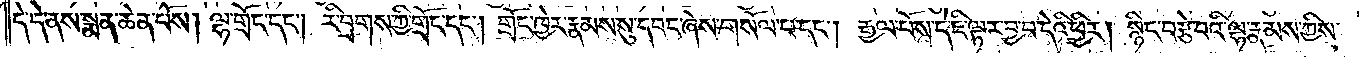དེ་དེ་ནས་སྨན་ཆེན་པོས། ལྷ་གྲོང་དང༌། རི་བྲགས་ཀྱི་གྲོང་དང༌། གྲོང་ཁྱེར་རྣམས་སུ་དབང་ཞེས་གསོལ་པ་དང༌། རྒྱལ་པོས་དེ་ཇི་ལྟར་བྱ་བ་དེའི་ཕྱིར། སྙིང་བརྩེ་བའི་ལྷ་རྣམས་ཀྱིས་
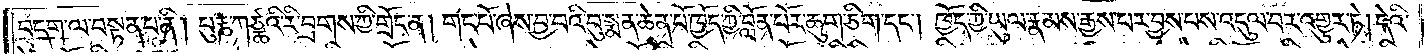བདག་ལ་བསྟན་པ་ནི། པུ་རྞ་ཀཙྪའི་རི་བྲགས་ཀྱི་གྲོང་ན། གང་པོ་ཞེས་བྱ་བའི་བུ་སྨན་ཆེན་པོ་ཁྱོད་ཀྱི་བློན་པོར་ཆུག་ཅིག་དང༌། ཁྱོད་ཀྱི་ཡུལ་རྣམས་རྒྱས་པར་བྱས་པས་འདུལ་བར་འགྱུར་ཏེ། དེའི་
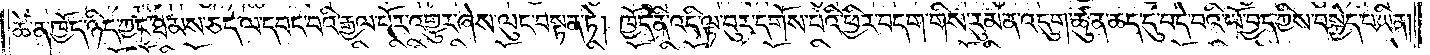ཚེ་ན་ཁྱོད་ཉིད་ཀྱང་ཐམས་ཅད་ལ་དབང་བའི་རྒྱལ་པོར་འགྱུར་ཞེས་ལུང་བསྟན་ཏེ། ཁྱོད་ནི་འདི་ལྟ་བུར་དགོས་པའི་ཕྱིར་བདག་གིས་རུམ་ན་འདུག་ཚུན་ཆད་དུ་བདེ་བའི་ཡོ་བྱད་ཀྱིས་བསྐྱེད་པ་ཡིན།
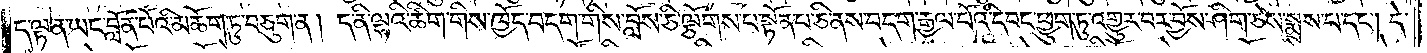ད་ལྟ་ན་ཡང་བློན་པོའི་མཆོག་ཏུ་བཅུག་ན། ད་ནི་ལྷའི་ཚིག་གིས་ཁྱོད་བདག་གིས་བློས་ཅི་ལྕོགས་པ་སྟོན་པ་ཅི་ནས་བདག་རྒྱལ་པོའི་དབང་ཕྱུག་ཏུ་འགྱུར་བར་བྱོས་ཤིག་ཅེས་སྨྲས་པ་དང༌། དེ་
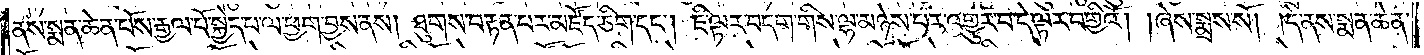ནས་སྨན་ཆེན་པོས་རྒྱལ་པོ་སྐྱེད་པ་ལ་ཕྱག་བྱས་ནས། ཐུགས་བརྟན་པར་མཛོད་ཅིག་དང༌། ཇི་ལྟར་བདག་གིས་ལྷ་མཉེས་པར་འགྱུར་བ་དེ་ལྟར་བགྱིའོ། །ཞེས་སྨྲས་སོ། །དེ་ནས་སྨན་ཆེན་
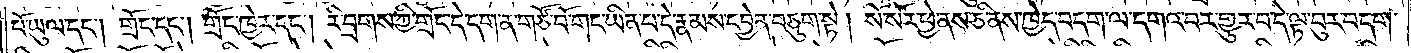པོ་ཡུལ་དང༌། གྲོང་དང༌། གྲོང་ཁྱེར་དང༌། རི་བྲགས་ཀྱི་གྲོང་དེ་དག་ན་གཙོ་བོ་གང་ཡིན་པ་དེ་རྣམས་དབྱེན་བཅུག་སྟེ། སོ་སོར་ཕྱེ་ནས་ཅི་ནས་ཁྱེད་བདག་ལ་དགའ་བར་གྱུར་པ་དེ་ལྟ་བུར་བདག་
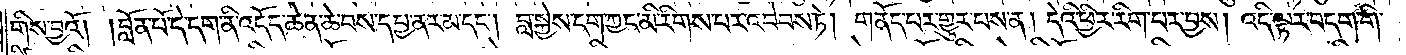གིས་བྱའོ། །བློན་པོ་དེ་དག་ནི་འདོད་ཆེན་ཆེ་བས་དཔྱ་ནར་མ་དང༌། བླ་སྐྱེས་དག་ཀྱང་མི་རིགས་པར་འབེབས་ཏེ། གནོད་པར་གྱུར་པས་ན། དེའི་ཕྱིར་རིག་པར་བྱས། འདི་ལྟར་བདག་གི་
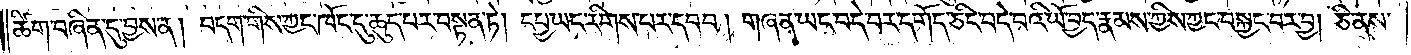ཚིག་བཞིན་དུ་བྱས་ན། བདག་གིས་ཀྱང་ཁོང་དུ་ཆུད་པར་བསྟན་ཏེ། དཔྱ་ཡང་རིགས་པར་དབབ། གཞན་ཡང་བདེ་བར་དགོད་ཅིང་བདེ་བའི་ཡོ་བྱད་རྣམས་ཀྱིས་ཀྱང་བསྐྱང་བར་བྱ། ཅི་ནས་
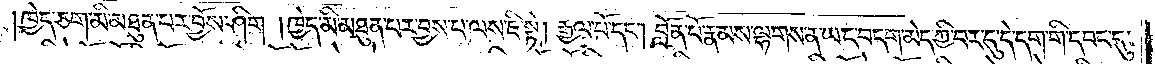ཁྱེད་ཅག་མི་མཐུན་པར་བྱོས་ཤིག །ཁྱེད་མི་མཐུན་པར་བྱས་པ་ལས་ཇི་སྟེ། རྒྱལ་པོ་དང༌། བློན་པོ་རྣམས་ལྷགས་ན་ཡང་བདག་མེད་ཀྱི་བར་དུ་དེ་དག་གི་དབང་དུ་
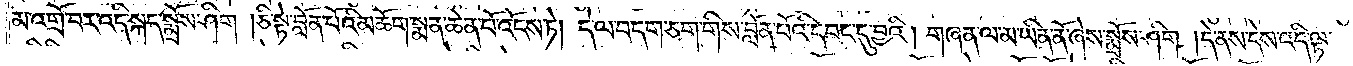མ་འགྲོ་བར་འདི་སྐད་སྨྲོས་ཤིག །ཅི་སྟེ་བློན་པོའི་མཆོག་སྨན་ཆེན་པོ་འོངས་ཏེ། དེ་ལ་བདག་ཅག་གིས་བློན་པོའི་དབང་དུ་བྱའི། གཞན་ལ་མ་ཡིན་ནོ་ཞེས་སྨྲོས་ཤིག །དེ་ནས་དེས་འདི་ལྟ་
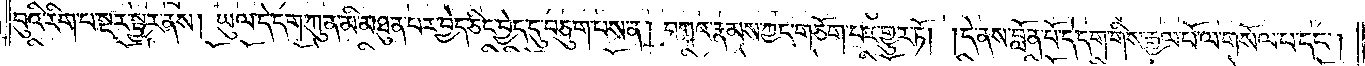བུའི་རིགས་པ་སྔར་སྦྱར་ནས། ཡུལ་དེ་དག་ཀུན་མི་མཐུན་པར་བྱེད་ཅིང་བྱེད་དུ་བཅུག་པས་ན། བཀའ་རྣམས་ཀྱང་གཅོག་པར་གྱུར་ཏོ། །དེ་ནས་བློན་པོ་དེ་དག་གིས་རྒྱལ་པོ་ལ་གསོལ་པ་དང༌།
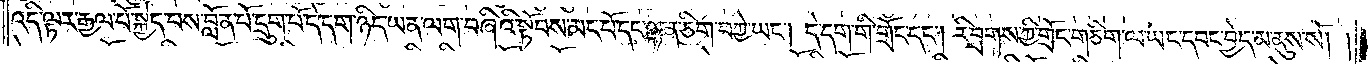འདི་ལྟར་རྒྱལ་པོ་སྐྱེད་པས་བློན་པོ་དྲུག་པོ་དེ་དག་ཉིད་ཡན་ལག་བཞིའི་སྟོབས་མང་པོ་དང་ལྷན་ཅིག་བཀྱེ་ཡང༌། དེ་དག་གི་གྲོང་དང༌། རི་བྲགས་ཀྱི་གྲོང་གཅིག་ལ་ཡང་དབང་བྱེད་མ་ནུས་སོ། །
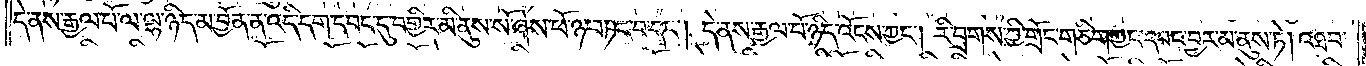དེ་ནས་རྒྱལ་པོ་ལ་ལྷ་ཉིད་མ་བྱོན་ན་འདི་དག་དབང་དུ་བགྱིར་མི་ནུས་སོ་ཞེས་ཕོ་ཉ་བཏང་བ་དང༌། དེ་ནས་རྒྱལ་པོ་ཉིད་འོངས་ཀྱང༌། རི་བྲགས་ཀྱི་གྲོང་གཅིག་ཀྱང་དབང་བྱར་མ་ནུས་ཏེ། འཐབ་
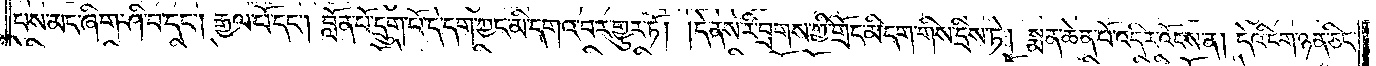པས་མང་ཞིག་ཤི་བ་དང༌། རྒྱལ་པོ་དང༌། བློན་པོ་དྲུག་པོ་དེ་དག་ཀྱང་མི་དགའ་བར་གྱུར་ཏོ། །དེ་ནས་རི་བྲགས་ཀྱི་གྲོང་མི་དག་གིས་དྲིས་ཏེ། སྨན་ཆེན་པོ་འདིར་འོངས་ན། དེའི་ངག་ཉན་ཅིང་
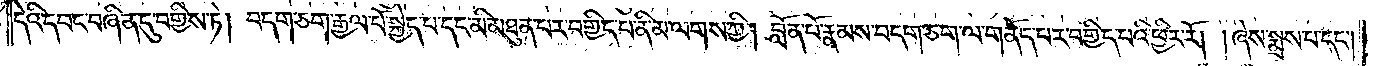དེའི་དབང་བཞིན་དུ་བགྱིས་ཏེ། བདག་ཅག་རྒྱལ་པོ་སྐྱེད་པ་དང་མི་མཐུན་པར་བགྱིད་པ་ནི་མ་ལགས་ཀྱི། བློན་པོ་རྣམས་བདག་ཅག་ལ་གནོད་པར་བགྱིད་པའི་ཕྱིར་རོ། །ཞེས་སྨྲས་པ་དང༌།
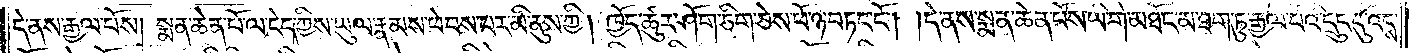དེ་ནས་རྒྱལ་པོས། སྨན་ཆེན་པོ་ལ་ངེད་ཀྱིས་ཡུལ་རྣམས་ཕེབས་པར་མི་ནུས་ཀྱི། ཁྱོད་ཚུར་ཤོག་ཅིག་ཅེས་ཕོ་ཉ་བཏང་ངོ༌། །དེ་ནས་སྨན་ཆེན་པོས་ཡི་གེ་མཐོང་མ་ཐག་ཏུ་རྒྱལ་པོའི་དྲུང་དུ་འོངས་
